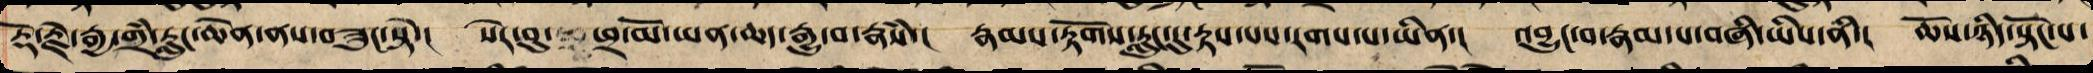རྡོ་རྗེ་རྒྱ་གྲཾ་རླུང་ཆེན་ནས་བཟུང་སྟེ་། སེར་བུ་ ཕྲ་མོ་ཡན་ཆད་རྒྱུ་བ་རྣཾས་། རྣམ་རྟོགས་རླུང་དུ་རྟས་པས་རགས་པ་ཡིན་། འབྱུང་བ་རྣམ་པ་བཞི་ཡིས་ནི་། ཆོས་ཉིད་སྟོང་པ་
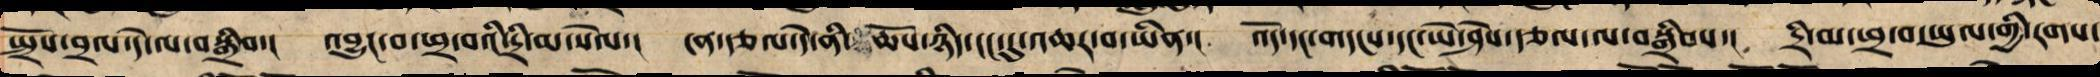སྤྲོས་བྲལ་དེ་ལ་བསྒྲིབ་། འབྱུང་བ་ཕྲ་བའི་དྲི་མ་སེལ་། ངན་རྩལ་དེ་ནི་ ཆོས་ཉིད་ངང་དུ་འཆར་བ་ཡིན་། འོད་དང་གདངས་དང་ཡེ་ཤེས་རྩལ་ལ་བསྒྲིབས་། དྲི་མ་ཕྲ་བ་ཡུལ་གྱི་རགས་
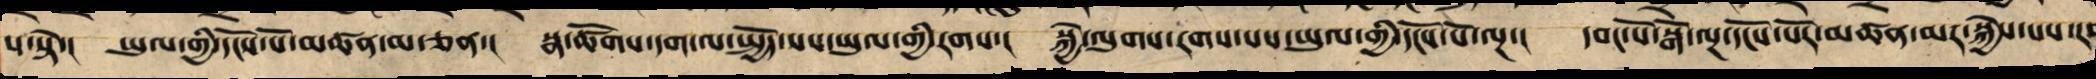པ་སྟེ་། ཡུལ་གྱི་དངོས་པོ་མཚན་མ་ཅན་། སྣ་ཚོགས་དག་ལ་སྤྱོད་པས་ཡུལ་གྱི་རགས་། སྐྱེ་ལུགས་རགས་པས་ཡུལ་གྱི་དངོས་པོ་ལྔ་། དབང་པོ་སྒོ་ལྔ་དངོས་པོར་མཚན་མར་སྐྱེས་པས་
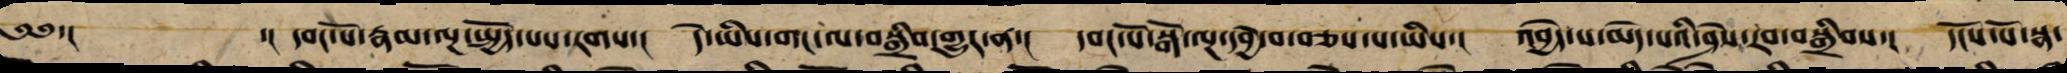༄༅་། ་། དབང་པོ་རྣམ་ལྔ་སྤྱོད་པས་རགས་། དེ་ཡིས་གང་ལ་བསྒྲིབ་གྱུར་ན་། དབང་པོ་སྒོ་ལྔ་དབྱེ་བ་བཅས་པ་ཡིས་། འབྱེད་པ་མེད་པའི་ཤེས་རབ་བསྒྲིབས་། དངོས་པོ་སྣ་
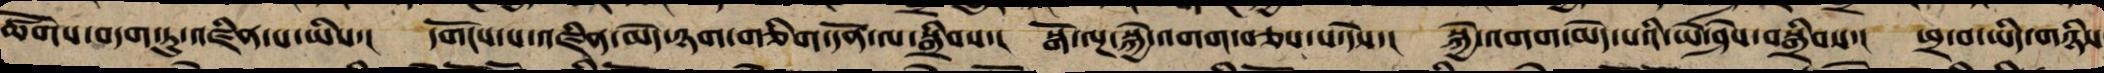ཚོགས་བདག་ཏུ་འཛིན་པ་ཡིས་། དགོངས་པ་འཛིན་མེད་ཉག་ཅིག་དོན་ལ་སྒྲིབས་། སྒོ་ལྔ་སྐྱེ་འགག་བཅས་པ་དེས་། སྐྱེ་འགག་མེད་པའི་ཡེ་ཤེས་བསྒྲིབས་། ཕྲ་བ་ཡིད་གཉིས
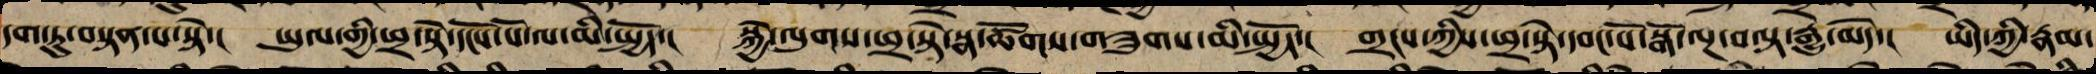དག་ཏུ་བསྟན་པ་སྟེ་། ཡུལ་གྱི་ཕྲ་སྟེ་དངོས་པོ་ལ་མི་སྤྱོད་། སྐྱེ་ལུགས་ཕྲ་སྟེ་སྣ་ཚོགས་གཟུགས་མི་སྤྱོད་། གྲངས་ཀྱིས་ཕྲ་སྟེ་དབང་པོ་སྒོ་ལྔ་བལྟ་རྒྱུ་མེད་། ཡིད་ཀྱི་རྣམ་
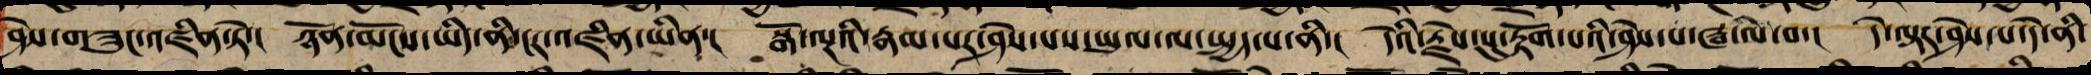ཤེས་གཟུང་འཛིན་ཏེ་། ཉོན་མོངས་ཡིད་ནི་ངར་འཛིན་ཡིན་། སྒོ་ལྔའི་རྣམ་པར་ཤེས་པས་ཡུལ་ལ་སྤྱད་པ་ནི་། དེ་ཡི་རྗེས་སུ་རྟོག་པའི་ཤེས་པ་ཝ་ལེ་བ་། དེ་ལྟར་ཤེས་པ་དེ་ནི་
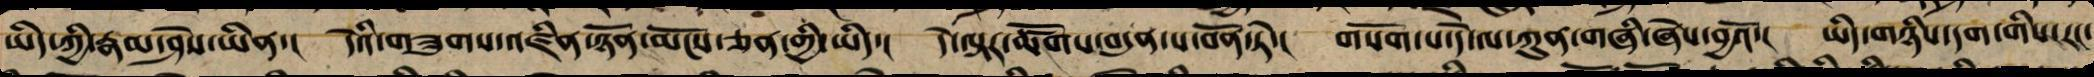ཡིད་ཀྱི་རྣམ་ཤེས་ཡིན་། དེའི་གཟུགས་འཛིན་ཉོན་མོངས་ཅན་གྱི་ཡིད་། དེ་ལྟར་ཚོགས་བདུན་ས་བོན་ཏེ་། གསོག་པ་དེ་ལ་ཀུན་གཞི་ཞེས་བྱའོ་། ཡིད་གཉིས་དག་གིས་རང་
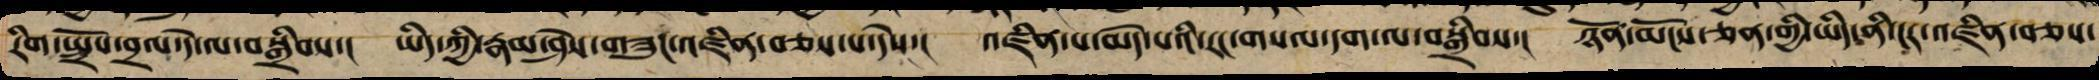རིག་སྤྲོས་བྲལ་དེ་ལ་བསྒྲིབས་། ཡིད་ཀྱི་རྣམ་ཤེས་གཟུང་འཛིན་བཅས་པ་དེས་། འཛིན་པ་མེད་པའི་རང་གསལ་དག་ལ་བསྒྲིབས་། ཉོན་མོངས་ཅན་གྱི་ཡིད་ནི་ངར་འཛིན་བཅས་
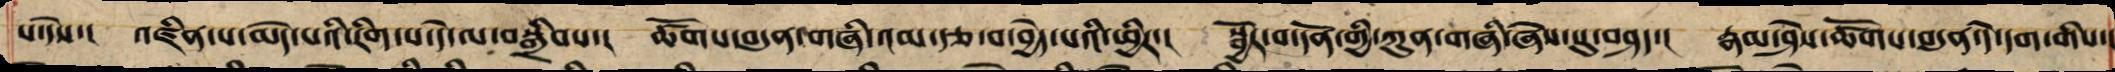པ་དེས་། འཛིན་པ་མེད་པའི་རིག་པ་དེ་ལ་བསྒྲིབས་། ཚོགས་བདུན་གཞི་འམ་རྩ་བ་བྱེད་པའི་ཕྱིར་། སྦྱོར་བ་དོན་གྱི་ཀུན་གཞི་ཞེས་སུ་བཤད་། རྣམ་ཤེས་ཚོགས་བདུན་དེ་དག་གིས་།
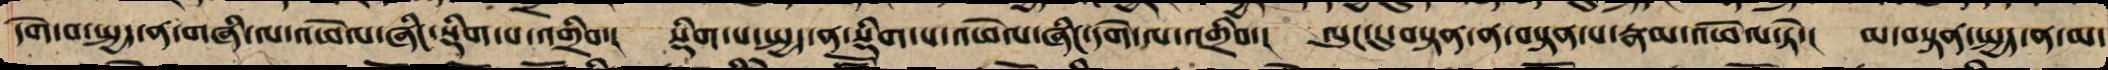དགེ་བ་སྤྱད་ན་གཞི་ལ་འཕེལ་ཞིང་སྡིག་པ་འགྲིབ་། སྡིག་པ་སྤྱད་ན་སྡིག་པ་འཕེལ་ཞིང་དགེ་ལ་འགྲིབ་། ལུང་དུ་བསྟན་ན་བསྟན་པ་རྣམ་འཕེལ་ཏེ་། མ་བསྟན་སྤྱད་ན་མ་
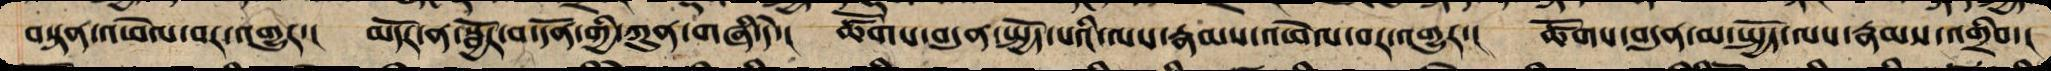བསྟན་འཕེལ་བར་འགྱུར་། མདོར་ན་སྦྱོར་བ་དོན་གྱི་ཀུན་གཞི་དེ་། ཚོགས་བདུན་སྤྱོད་པའི་ལས་རྣམས་འཕེལ་བར་འགྱུར་། ཚོགས་བདུན་མ་སྤྱོད་ལས་རྣམས་འགྲིབ་།
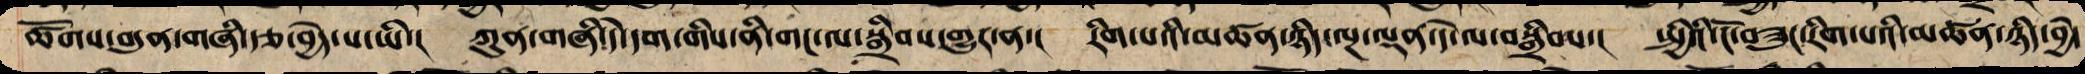ཚོགས་བདུན་གཞི་རྩ་བྱེད་པ་ཡི་། ཀུན་གཞི་དེ་དག་གིས་ནི་གང་ལ་སྒྲིབས་གྱུར་ན་། རིག་པའི་མཚན་ཉིད་ལྔ་ལྡན་དེ་ལ་བསྒྲིབས་། སྤྱིའི་ངོ་བཟུང་རིག་པའི་མཚན་ཉིད་བྱེད
